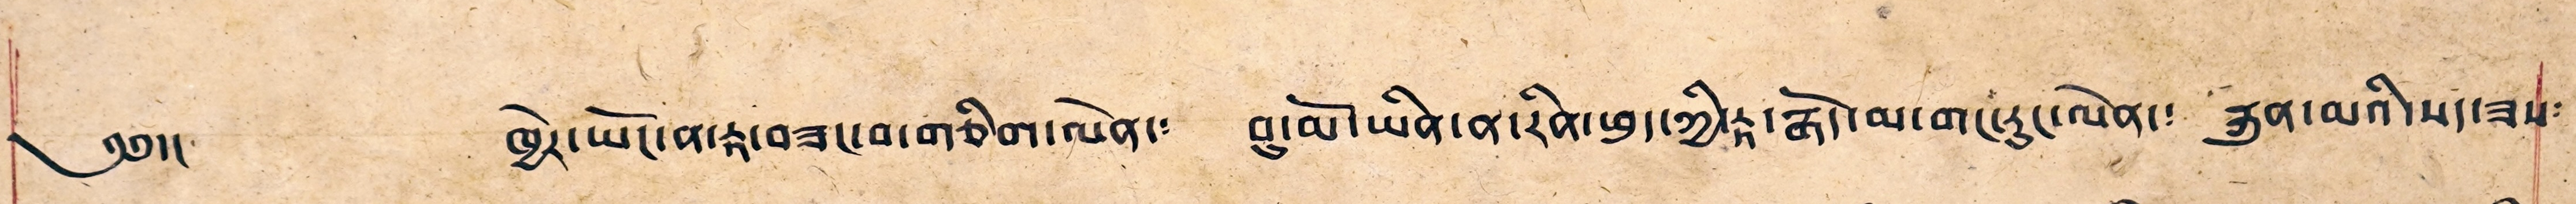༄༅།།  ཁྱེར་ཡོད་ན་རྟ་བཟང་བ་གཅིག་ལེན་༴ བུ་མོ་ཡིན་ན་རིན་ཕུད་ཀྱི་རྟ་རྒོད་མ་གང་རུང་ལེན་༴ རྐུན་མའི་སད་ཟས༴
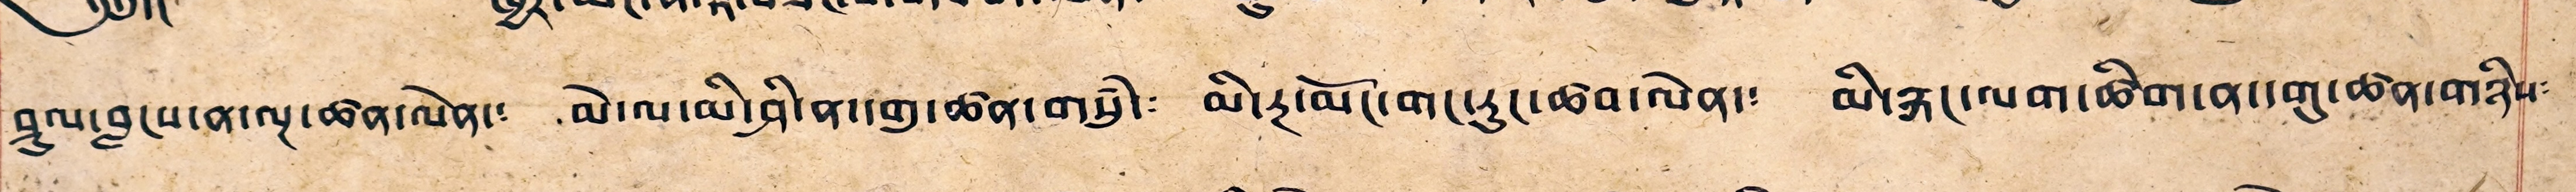ཤུལ་བླངས་ན་ལྔ་ཚན་ལེན་༴ མེ་ལ་མི་ཤི་ན་དགུ་ཚན་གསུཾ་༴ མི་རྔ་མོང་གང་རུང་ཚབ་ལེན་༴ མི་རྐང་ལག་ཚིག་ན་དགུ་ཚན་གཉིས༴
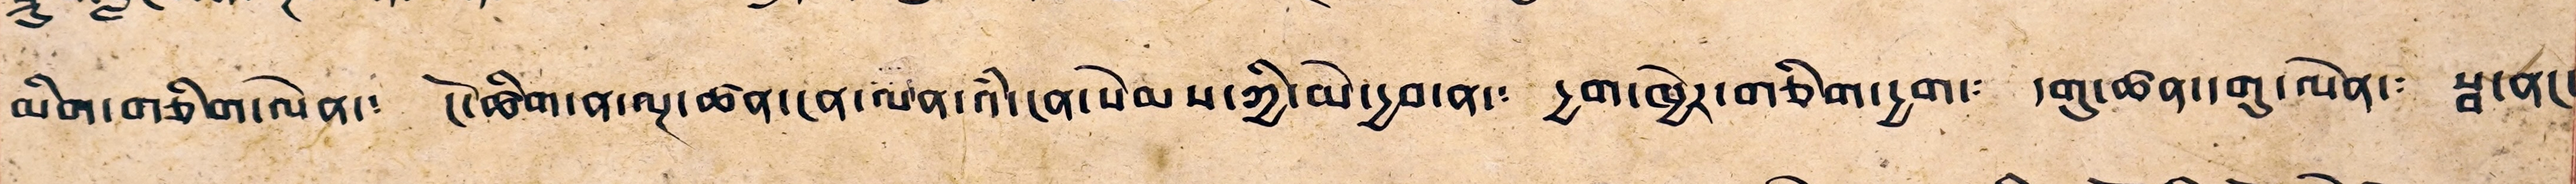མིག་གཅིག་ལེན་༴ ངོ་ཚིག་ན་ལྔ་ཚན་ངན་ལེན་འཾ་ངན་སེམས་ཀྱི་མེ་དྱབ་ན་༴ དྱག་ཁྱེར་གཅིག་དྱག་༴ དགུ་ཚན་དགུ་ལེན་༴ སྦ་ནང་
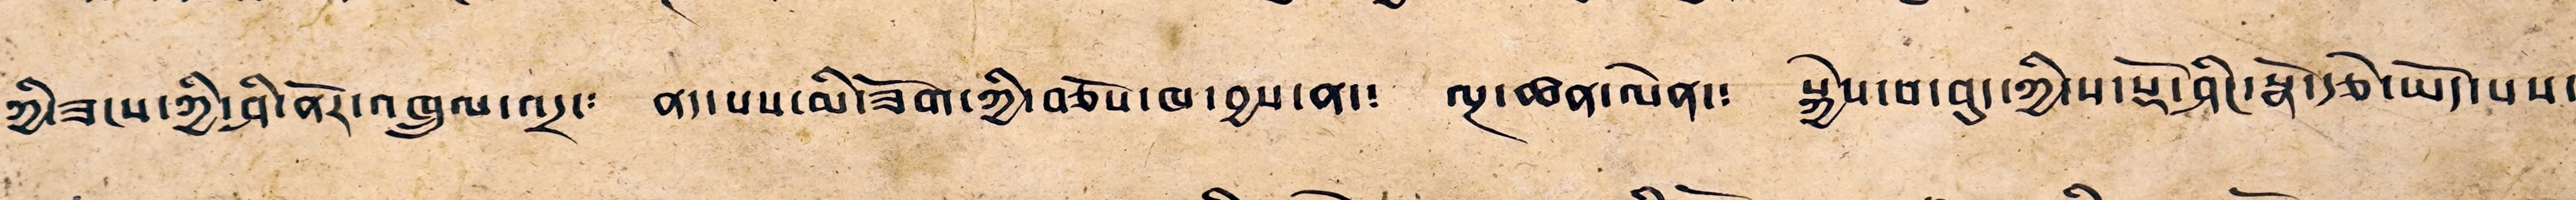ཀྱི་ཟངས་ཀྱི་ཤི་ནོར་འཁྲུལ་འདྲ་༴ ནད་པས་མི་ཟོག་ཀྱི་བཅོས་ཁ་བྱས་ན་༴ ལྔ་ཚན་ལེན་༴ སྐྱེས་བ་བུད་ཀྱིས་རྡོ་ཤིང་སྣོ་རྩེ་ཡོད་པས་
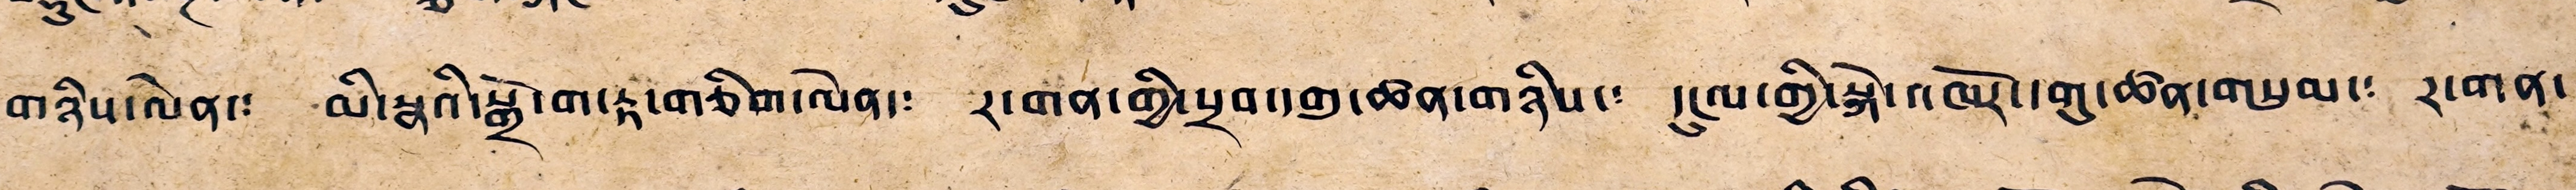གཉིས་ལེན་༴ མི་སྣའི་སྒྲོ་ག་རྟ་གཅིག་ལེན་༴ ར་གན་གྱི་སྲབ་དགུ་ཚན་གཉིས་༴ དངུལ་གྱི་སྐེ་འཁོར་དགུ་ཚེན་གསུམ་༴ ར་གན་
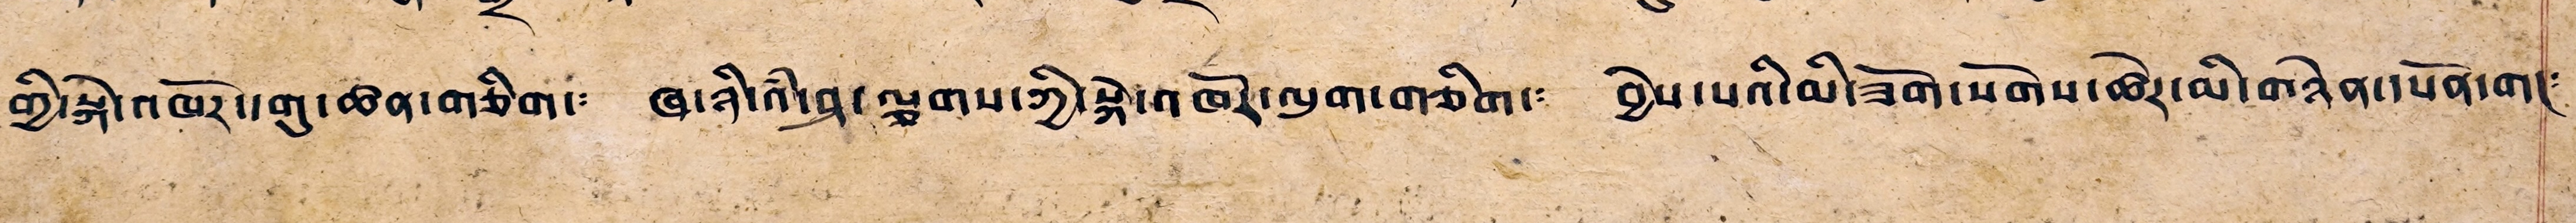ཀྱི་སྐེ་འཁོར་དགུ་ཚན་གཅིག་༴ ཞ་ཉི་འཾ་ཤ་ལྕགས་ཀྱི་སྐེ་འཁོར་ལུག་གཅིག་༴ བྱེས་པའི་མི་ཟོག་སོགས་ཚེར་མི་གཉེན་དཔོན་གང་༴
